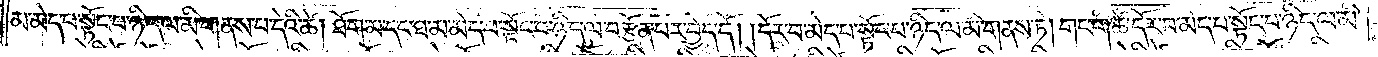མ་མེད་པ་སྟོང་པ་ཉིད་ལ་མི་གནས་པ་དེའི་ཚེ། ཐོག་མ་དང་ཐ་མ་མེད་པ་སྟོང་པ་ཉིད་ལ་བརྩོན་པར་བྱེད་དོ། །དོར་བ་མེད་པ་སྟོང་པ་ཉིད་ལ་མི་གནས་ཏེ། གང་གི་ཚེ་དོར་བ་མེད་པ་སྟོང་པ་ཉིད་ལ་མི་
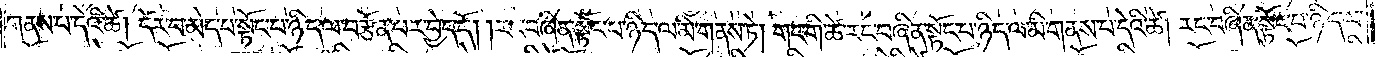གནས་པ་དེའི་ཚེ། དོར་བ་མེད་པ་སྟོང་པ་ཉིད་ལ་བརྩོན་པར་བྱེད་དོ། །རང་བཞིན་སྟོང་པ་ཉིད་ལ་མི་གནས་ཏེ། གང་གི་ཚེ་རང་བཞིན་སྟོང་པ་ཉིད་ལ་མི་གནས་པ་དེའི་ཚེ། རང་བཞིན་སྟོང་པ་ཉིད་ལ་
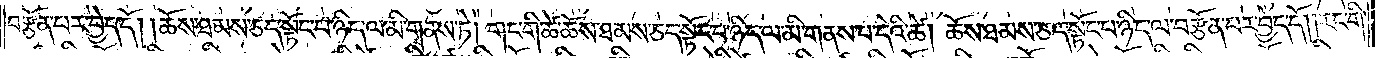བརྩོན་པར་བྱེད་དོ། །ཆོས་ཐམས་ཅད་སྟོང་པ་ཉིད་ལ་མི་གནས་ཏེ། གང་གི་ཚེ་ཆོས་ཐམས་ཅད་སྟོང་པ་ཉིད་ལ་མི་གནས་པ་དེའི་ཚེ། ཆོས་ཐམས་ཅད་སྟོང་པ་ཉིད་ལ་བརྩོན་པར་བྱེད་དོ། །རང་གི་
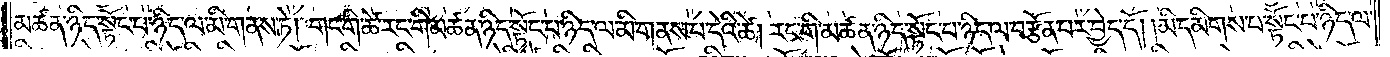མཚན་ཉིད་སྟོང་པ་ཉིད་ལ་མི་གནས་ཏེ། གང་གི་ཚེ་རང་གི་མཚན་ཉིད་སྟོང་པ་ཉིད་ལ་མི་གནས་པ་དེའི་ཚེ། རང་གི་མཚན་ཉིད་སྟོང་པ་ཉིད་ལ་བརྩོན་པར་བྱེད་དོ། །མི་དམིགས་པ་སྟོང་པ་ཉིད་ལ་
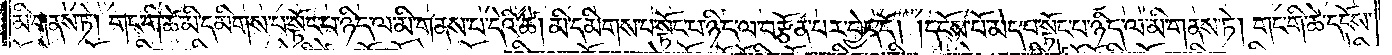མི་གནས་ཏེ། གང་གི་ཚེ་མི་དམིགས་པ་སྟོང་པ་ཉིད་ལ་མི་གནས་པ་དེའི་ཚེ། མི་དམིགས་པ་སྟོང་པ་ཉིད་ལ་བརྩོན་པར་བྱེད་དོ། །དངོས་པོ་མེད་པ་སྟོང་པ་ཉིད་ལ་མི་གནས་ཏེ། གང་གི་ཚེ་དངོས་
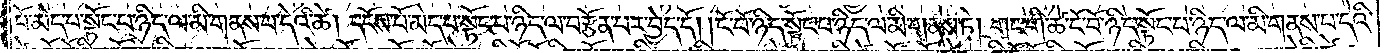པོ་མེད་པ་སྟོང་པ་ཉིད་ལ་མི་གནས་པ་དེའི་ཚེ། དངོས་པོ་མེད་པ་སྟོང་པ་ཉིད་ལ་བརྩོན་པར་བྱེད་དོ། །ངོ་བོ་ཉིད་སྟོང་པ་ཉིད་ལ་མི་གནས་ཏེ། གང་གི་ཚེ་ངོ་བོ་ཉིད་སྟོང་པ་ཉིད་ལ་མི་གནས་པ་དེའི་
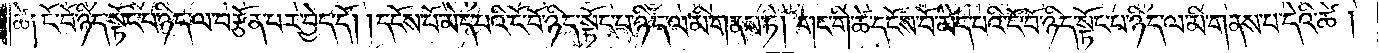ཚེ༑ ངོ་བོ་ཉིད་སྟོང་པ་ཉིད་ལ་བརྩོན་པར་བྱེད་དོ། །དངོས་པོ་མེད་པའི་ངོ་བོ་ཉིད་སྟོང་པ་ཉིད་ལ་མི་གནས་ཏེ། གང་གི་ཚེ་དངོས་པོ་མེད་པའི་ངོ་བོ་ཉིད་སྟོང་པ་ཉིད་ལ་མི་གནས་པ་དེའི་ཚེ།
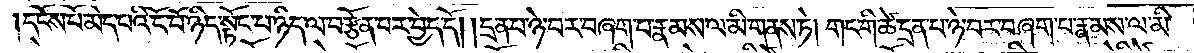དངོས་པོ་མེད་པའི་ངོ་བོ་ཉིད་སྟོང་པ་ཉིད་ལ་བརྩོན་པ་བྱེད་དོ། །དྲན་པ་ཉེ་བར་བཞག་པ་རྣམས་ལ་མི་གནས་ཏེ། གང་གི་ཚེ་དྲན་པ་ཉེ་བར་བཞག་པ་རྣམས་ལ་མི་
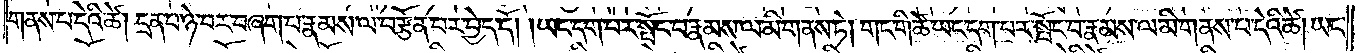གནས་པ་དེའི་ཚེ། དྲན་པ་ཉེ་བར་བཞག་པ་རྣམས་ལ་བརྩོན་པར་བྱེད་དོ། །ཡང་དག་པར་སྤོང་བ་རྣམས་ལ་མི་གནས་ཏེ། གང་གི་ཚེ་ཡང་དག་པར་སྤོང་བ་རྣམས་ལ་མི་གནས་པ་དེའི་ཚེ། ཡང་
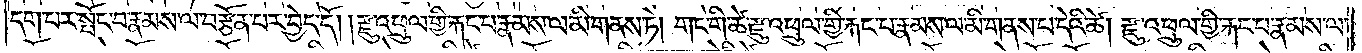དག་པར་སྤོང་བ་རྣམས་ལ་བརྩོན་པར་བྱེད་དོ། །རྫུ་འཕྲུལ་གྱི་རྐང་པ་རྣམས་ལ་མི་གནས་ཏེ། གང་གི་ཚེ་རྫུ་འཕྲུལ་གྱི་རྐང་པ་རྣམས་ལ་མི་གནས་པ་དེའི་ཚེ། རྫུ་འཕྲུལ་གྱི་རྐང་པ་རྣམས་ལ་
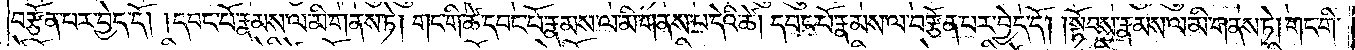བརྩོན་པར་བྱེད་དོ། །དབང་པོ་རྣམས་ལ་མི་གནས་ཏེ། གང་གི་ཚེ་དབང་པོ་རྣམས་ལ་མི་གནས་པ་དེའི་ཚེ། དབང་པོ་རྣམས་ལ་བརྩོན་པར་བྱེད་དོ། །སྟོབས་རྣམས་ལ་མི་གནས་ཏེ། གང་གི་
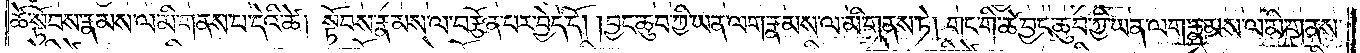ཚེ་སྟོབས་རྣམས་ལ་མི་གནས་པ་དེའི་ཚེ། སྟོབས་རྣམས་ལ་བརྩོན་པར་བྱེད་དོ། །བྱང་ཆུབ་ཀྱི་ཡན་ལག་རྣམས་ལ་མི་གནས་ཏེ། གང་གི་ཚེ་བྱང་ཆུབ་ཀྱི་ཡན་ལག་རྣམས་ལ་མི་གནས་
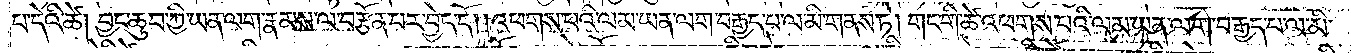པ་དེའི་ཚེ། བྱང་ཆུབ་ཀྱི་ཡན་ལག་རྣམས་ལ་བརྩོན་པར་བྱེད་དོ། །འཕགས་པའི་ལམ་ཡན་ལག་བརྒྱད་པ་ལ་མི་གནས་ཏེ། གང་གི་ཚེ་འཕགས་པའི་ལམ་ཡན་ལག་བརྒྱད་པ་ལ་མི་
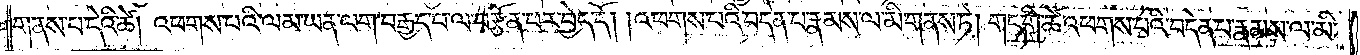གནས་པ་དེའི་ཚེ། འཕགས་པའི་ལམ་ཡན་ལག་བརྒྱད་པ་ལ་བརྩོན་པར་བྱེད་དོ། །འཕགས་པའི་བདེན་པ་རྣམས་ལ་མི་གནས་ཏེ། གང་གི་ཚེ་འཕགས་པའི་བདེན་པ་རྣམས་ལ་མི་
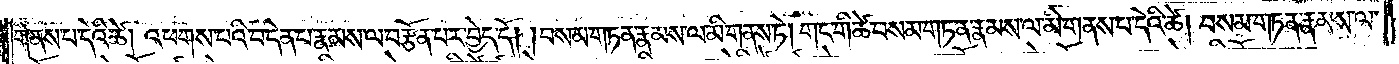གནས་པ་དེའི་ཚེ། འཕགས་པའི་བདེན་པ་རྣམས་ལ་བརྩོན་པར་བྱེད་དོ། །བསམ་གཏན་རྣམས་ལ་མི་གནས་ཏེ། གང་གི་ཚེ་བསམ་གཏན་རྣམས་ལ་མི་གནས་པ་དེའི་ཚེ། བསམ་གཏན་རྣམས་ལ་
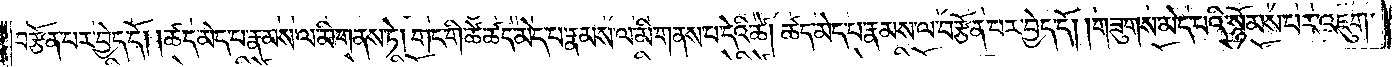བརྩོན་པར་བྱེད་དོ། །ཚད་མེད་པ་རྣམས་ལ་མི་གནས་ཏེ། གང་གི་ཚེ་ཚད་མེད་པ་རྣམས་ལ་མི་གནས་པ་དེའི་ཚེ། ཚད་མེད་པ་རྣམས་ལ་བརྩོན་པར་བྱེད་དོ། །གཟུགས་མེད་པའི་སྙོམས་པར་འཇུག་
